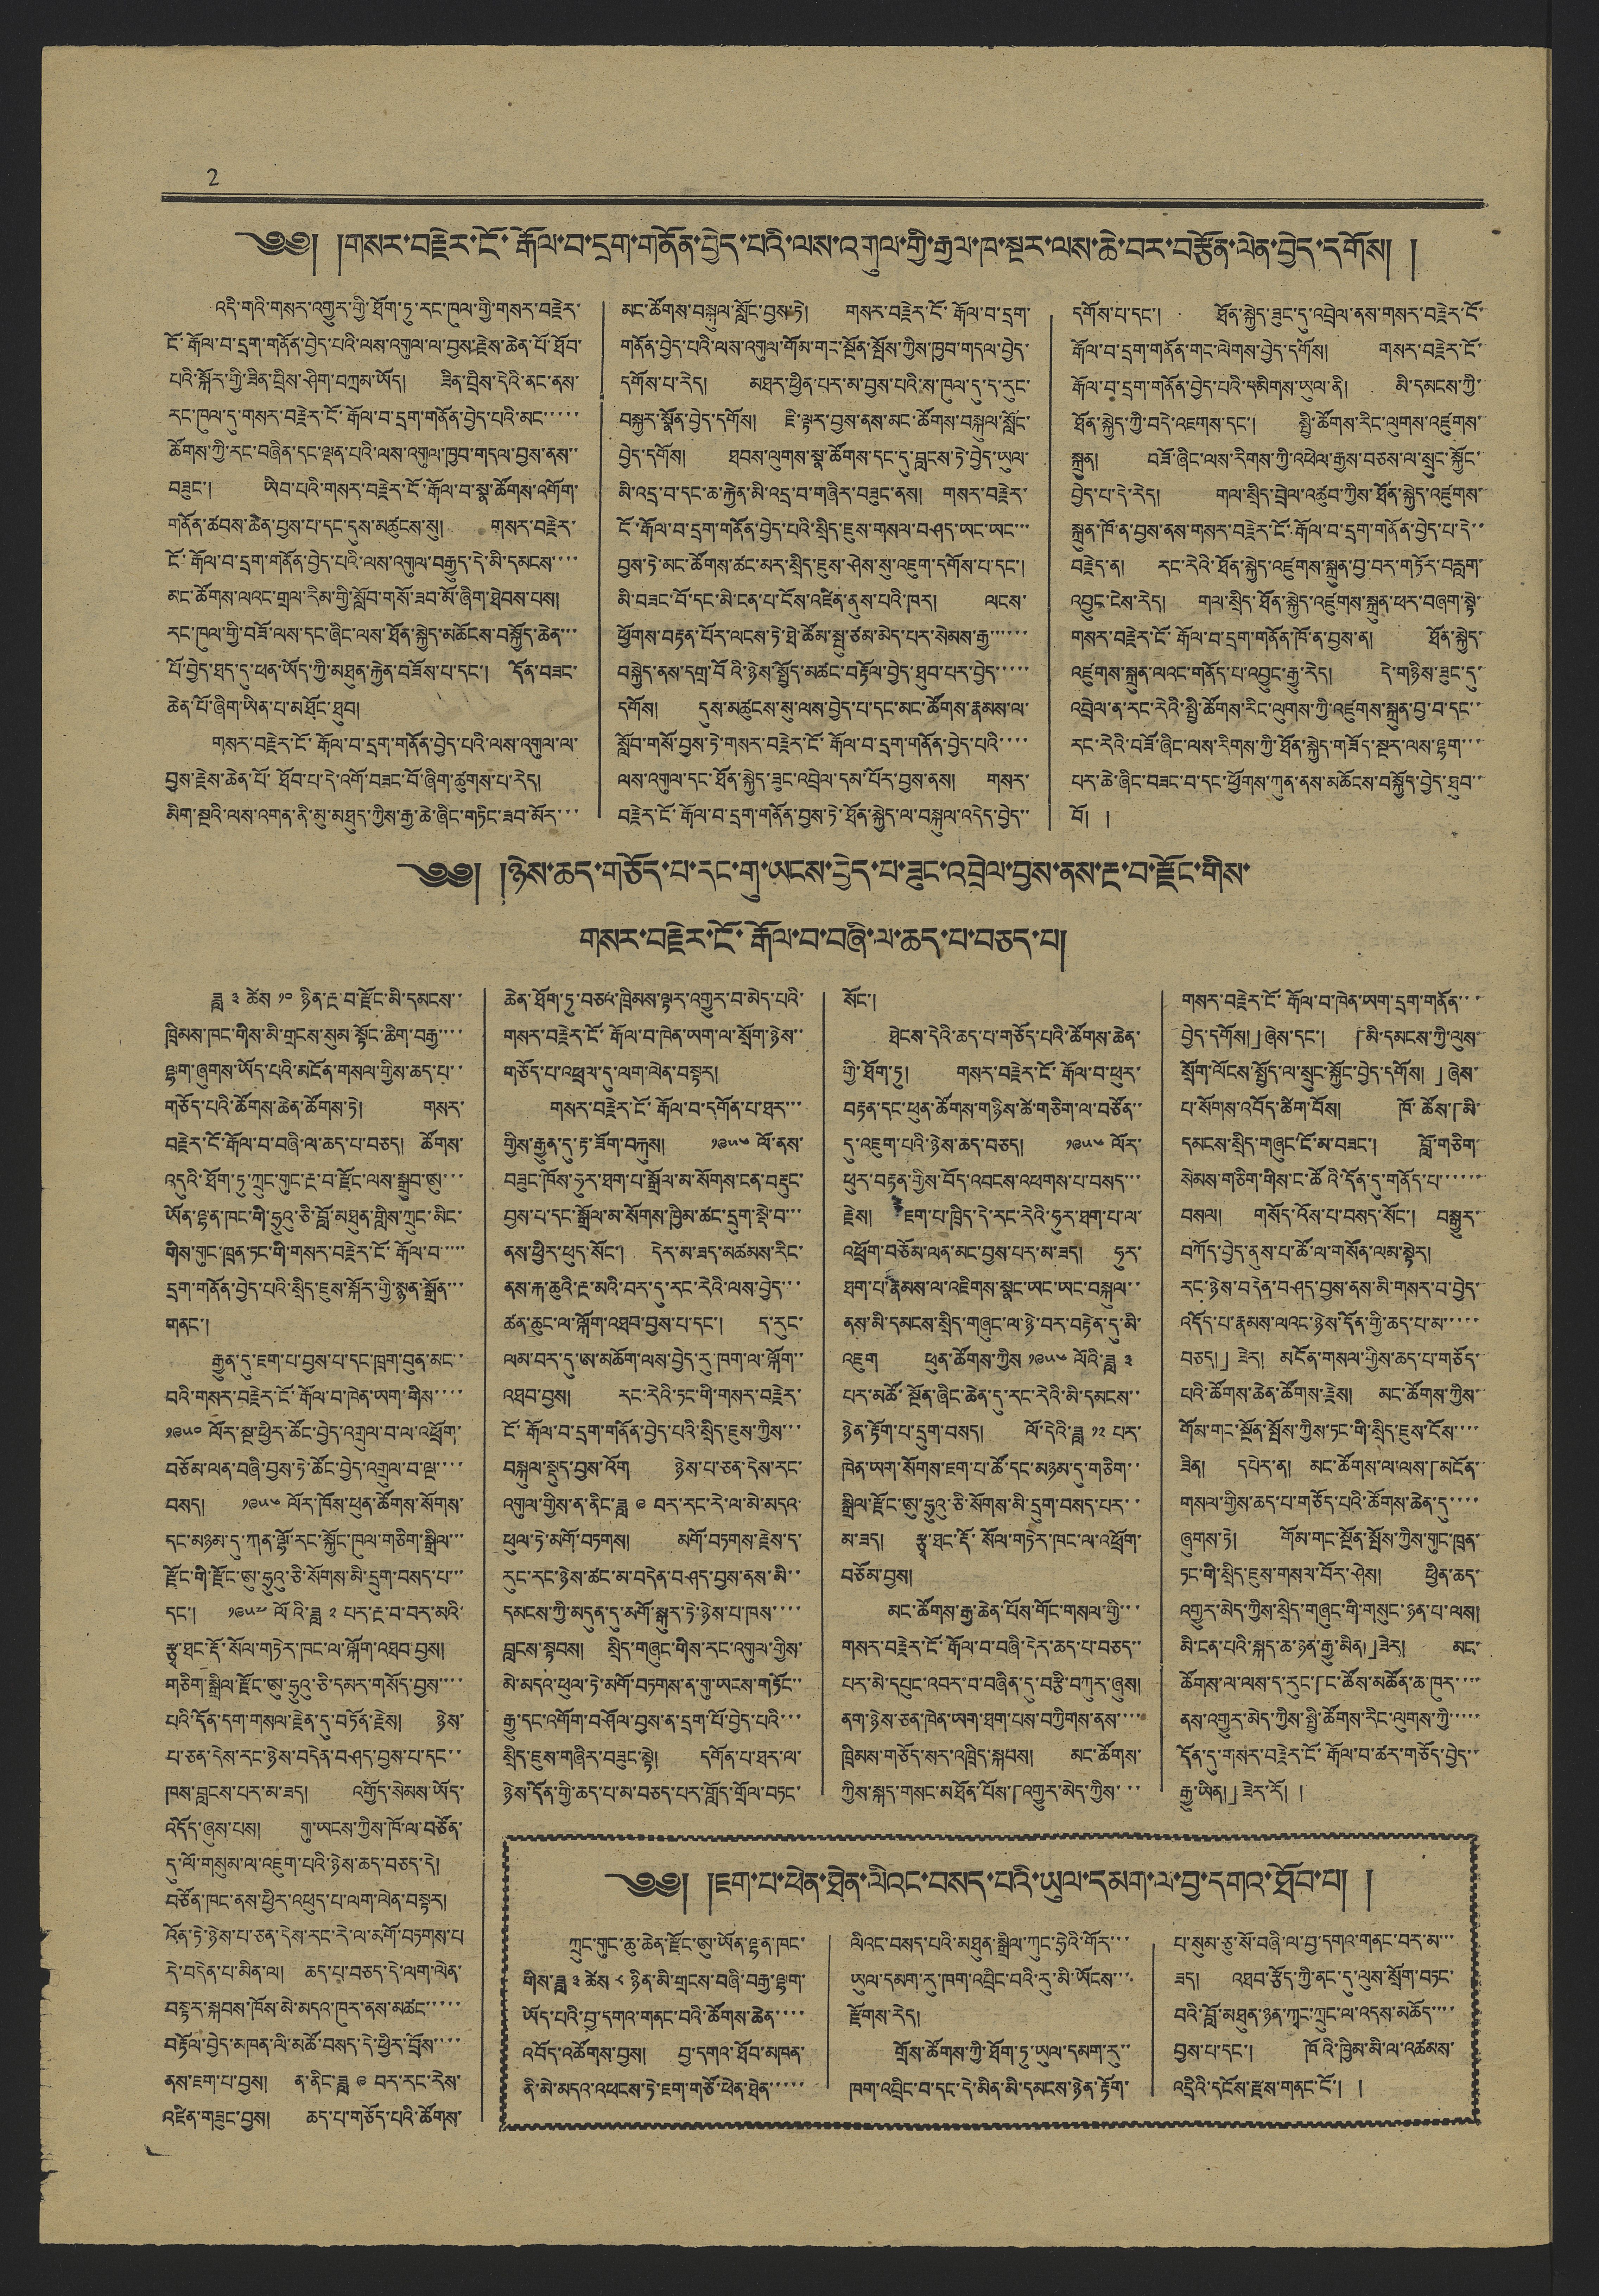2
༄༅། །གསར་བརྗེར་ངོ་རྒོལ་བ་དྲག་གནོན་བྱེད་པའི་ལས་འགུལ་གྱི་རྒྱལ་ཁ་སྔར་ལས་ཆེ་བར་བརྩོན་ལེན་བྱེད་དགོས། །
འདི་གའི་གསར་འགྱུར་གྱི་ཐོག་ཏུ་རང་ཁུལ་གྱི་གསར་བརྗེར་
ངོ་རྒོལ་བ་དྲག་གནོན་བྱེད་པའི་ལས་འགུལ་ལ་བྱས་རྗེས་ཆེན་པོ་ཐོབ་
པའི་སྐོར་གྱི་ཟིན་བྲིས་ཤིག་བཀྲམ་ཡོད། ཟིན་བྲིས་དེའི་ནང་ནས་
རང་ཁུལ་དུ་གསར་བརྗེར་ངོ་རྒོ་བ་དྲག་གནོན་བྱེད་པའི་མང་་་་་
ཚོགས་ཀྱི་རང་བཞིན་དང་ལྡན་པའི་ལས་འགུལ་ཁྱབ་གདལ་བྱས་ནས་་
བཟུང་། ཡིབ་པའི་གསར་བརྗེར་ངོ་རྒོལ་བ་སྣ་ཚོགས་འགོག་
གནོན་ཚོབས་ཆེན་བྱས་པ་དང་དུས་མཚུངས་སུ། གསར་བརྗེར་
ངོ་རྒོལ་བ་དྲག་གནོན་བྱེད་པའི་ལས་འགུལ་བརྒྱུད་དེ་མི་དམངས་་་་
མང་ཚོགས་ལའང་གྲལ་རིམ་གྱི་སློབ་གསོ་ཟབ་མོ་ཞིག་ཐེབས་པས།
རང་ཁུལ་གྱི་བཟོ་ལས་དང་ཞིང་ལས་ཐོན་སྐྱེད་མཆོངས་བསྐྱོད་ཆེན་་་
པོ་བྱེད་ཐད་དུ་ཕན་ཡོད་ཀྱི་མཐུན་རྐྱེན་བཟོས་པ་དང་། དོན་བཟང་
ཆེན་པོ་ཞོག་ཡིན་པ་མཐོང་ཐུབ།
གསར་བརྗེར་ངོ་རྒོལ་བ་དྲག་གནོན་བྱེད་པའི་ལས་འགུལ་ལ་
བྱས་རྗེས་ཆེན་པོ་ཐོབ་པ་དེ་འགོ་བཟང་པོ་ཞིག་ཚུགས་པ་རེད།
མིག་སྔའི་ལས་འགན་ནི་མུ་མཐུད་ཀྱིས་རྒྱ་ཆེ་ཞིང་གཏིང་ཟབ་མོར་་་
མང་ཚོགས་བསྐུལ་སློང་བྱས་ཏེ། གསར་བརྗེར་ངོ་རྒོལ་བ་དྲག་
གནོན་བྱེད་པའི་ལས་འགུལ་གོམ་གང་སྔོན་སྤོས་ཀྱིས་ཁྱབ་གདལ་བྱེད་
དགོས་པ་རེད། མཐར་ཕྱིན་པར་མ་བྱས་པའི་ས་ཁུལ་དུ་ད་རུང་
བསྐྱར་སྣོན་བྱེད་དགོས། ཇི་ལྟར་བྱས་ནས་མང་ཚོགས་བསྐུལ་སློང་
བྱེད་དགོས། ཐབས་ལུགས་སྣ་ཚོགས་དང་དུ་བླངས་ཏེ་བྱེད་ཡུལ་
མི་འདྲ་བ་དང་ཆ་རྐྱེན་མི་འདྲ་བ་གཞིར་བཟུང་ནས། གསར་བརྗེར་
ངོ་རྒོལ་བ་དྲག་གནོན་བྱེད་པའི་སྲིད་ཇུས་གསལ་བཤད་ཡང་ཡང་་་
བྱས་ཏེ་མང་ཚོགས་ཚང་མར་སྲིད་ཇུས་ཤེས་སུ་འཇུག་དགོས་པ་དང་།
མི་བཟང་བོ་དང་མི་ངན་པ་ངོས་འཛིན་ནུས་པའི་ཁར། ལངས་
ཕྱོགས་བརྟན་པོར་ལངས་ཏེ་ཐེ་ཚོམ་སྤུ་ཙམ་མེད་པར་སེམས་རྒྱ་་་་་་
བསྐྱེད་ནས་དགྲ་བོའི་ཉེས་སྤྱོད་མཚང་བརྟོལ་བྱེད་ཐུབ་པར་བྱེད་་་་་
དགོས། དུས་མཚུངས་སུ་ལས་བྱེད་པ་དང་མང་ཚོགས་རྣམས་ལ་
སློབ་གསོ་བྱས་ཏེ་གསར་བརྗེར་ངོ་རྒོལ་བ་དྲག་གནོན་བྱེད་པའི་་་་
ལས་འགུལ་དང་ཐོན་སྐྱེད་ཟུང་འབྲེལ་དམ་པོར་བྱས་ནས། གསར་
བརྗེར་ངོ་རྒོལ་བ་དྲག་གནོན་བྱས་ཏེ་ཐོན་སྐྱེད་ལ་བསྐུལ་འདེད་བྱེད་་
དགོས་པ་དང་། ཐོན་སྐྱེད་ཟུང་དུ་འབྲེལ་ནས་གསར་བརྗེར་ངོ་
རྒོལ་བ་དྲག་གནོན་གང་ལེགས་བྱེད་དགོས། གསར་བརྗེར་ངོ་
རྒོལ་བ་དྲག་གནོན་བྱེད་པའི་དམིགས་ཡུལ་ནི། མི་དམངས་ཀྱི་
ཐོན་སྐྱེད་ཀྱི་བདེ་འཇགས་དང་། སྤྱི་ཚོགས་རིང་ལུགས་འཛུགས་
སྐྲུན། བཟོ་ཞིང་ལས་རིགས་ཀྱི་འཕེལ་རྒྱས་བཅས་ལ་སྲུང་སྐྱོང་
བྱེད་པ་དེ་རེད། གལ་སྲིད་བྲེལ་འཚུབ་ཀྱིས་ཐོན་སྐྱེད་འཛུགས་
སྐྲུན་ཁོ་ན་བྱས་ནས་གསར་བརྗེར་ངོ་རྒོལ་བ་དྲག་གནོན་བྱེད་པ་དེ་་
བརྗེད་ན། རང་རེའི་ཐོན་སྐྱེད་འཛུགས་སྐྲུན་བྱ་བར་གཏོར་བརླག་
འབྱུང་ངེས་རེད། གལ་སྲིད་ཐོན་སྐྱེད་འཛུགས་སྐྲུན་ཕར་བཞག་སྟེ་
གསར་བརྗེར་ངོ་རྒོལ་བ་དྲག་གནོན་ཁོ་ན་བྱས་ན། ཐོན་སྐྱེད་
འཛུགས་སྐྲུན་ལའང་གནོད་པ་འབྱུང་རྒྱུ་རེད། དེ་གཉིས་ཟུང་དུ་
འབྲེལ་ན་རང་རེའི་སྤྱི་ཚོགས་རིང་ལུགས་ཀྱི་འཛུགས་སྐྲུན་བྱ་བ་དང་་
རང་རེའི་བཟོ་ཞིང་ལས་རིགས་ཀྱི་ཐོན་སྐྱེད་གཟོད་སྔར་ལས་ལྷག་་་
པར་ཆེ་ཞིང་བཟང་བ་དང་ཕྱོགས་ཀུན་ནས་མཆོངས་བསྐྱོད་བྱེད་ཐུབ་་
བོ། །
༄༅། །ཉེས་ཆད་གཅོད་པ་དང་གུ་ཡངས་བྱེད་པ་ཟུང་འབྲེལ་བྱས་ནས་རྔ་བ་རྫོང་གིས་
གསར་བརྗེར་ངོ་རྒོལ་བ་བཞི་ལ་ཆད་པ་བཅད་པ།
ཟླ ༣ ཚེས ༡༠ ཉིན་རྔ་བ་རྫོང་མི་དམངས་་
ཁྲིམས་ཁང་གིས་མི་གྲངས་སུམ་སྟོང་ཆིག་བརྒྱ་་་་
ལྷག་ཞུགས་ཡོད་པའི་མངོན་གསལ་གྱིས་ཆད་པ་་
གཅོད་པའི་ཚོགས་ཆེན་ཚོགས་ཏེ། གསར་
བརྗེར་ངོ་རྒོལ་བ་བཞི་ལ་ཆད་པ་བཅད། ཚོགས་
འདུའི་ཐོག་ཏུ་ཀྲུང་གུང་རྔ་བ་རྫོང་ལས་སྒྲུབ་ཨུ་་་
ཡོན་ལྷན་ཁང་གི་ཧྲུའུ་ཅི་བློ་མཐུན་གླིས་ཀྲུང་མིང་
གིས་གུང་ཁྲན་ཏང་གི་གསར་བརྗེར་ངོ་རྒོལ་བ་་་་
དྲག་གནོན་བྱེད་པའི་སྲིད་ཇུས་སྐོར་གྱི་སྙན་སྒྲོན་་་
གནང་།
རྒྱུན་དུ་ཇག་པ་བྱས་པ་དང་ཁྲག་བུན་མང་་
བའི་གསར་བརྗེར་ངོ་རྒོལ་བ་ཁེན་ཡག་གིས་་་་
༡༩༥༠ ལོར་སྔ་ཕྱིར་ཚོང་བྱེད་འགྲུལ་བ་ལ་འཕྲོག་
བཅོམ་ལན་བཞི་བྱས་ཏེ་ཚོང་བྱེད་འགྲུལ་བ་ལྔ་་་་
བསད། ༡༩༥༦ ལོར་ཁོས་ཕུན་ཚོགས་སོགས་
དང་མཉམ་དུ་ཀན་ལྷོ་རང་སྐྱོང་ཁུལ་གཅིག་སྒྲིལ་་་
རྫོང་གི་རྫོང་ཨུ་ཧྲུའུ་ཅི་སོགས་མི་དྲུག་བསད་པ་་་
དང་། ༡༩༥༧ ལོའི་ཟླ ༢ པར་རྔ་བ་བར་མའི་
རྩྭ་ཐང་རྡོ་སོལ་གཏེར་ཁང་ལ་ལྐོག་འཐབ་བྱས།
གཅིག་སྒྲིལ་རྫོང་ཨུ་ཧྲུའུ་ཅི་དམར་གསོད་བྱས་་་་
པའི་དོན་དག་གསལ་རྗེན་དུ་བཏོན་རྗེས། ཉེས་
པ་ཅན་དེས་རང་ཉེས་བདེན་བཤད་བྱས་པ་དང་་
ཁས་བླངས་པར་མ་ཟད། འགྱོད་སེམས་ཡོད་
འདོད་ཞུས་པས། གུ་ཡངས་ཀྱིས་ཁོ་ལ་བཙོན་
དུ་ལོ་གསུམ་ལ་འཇུག་པའི་ཉེས་ཆད་བཅད་དེ།
བཙོན་ཁང་ནས་ཕྱིར་འཕུད་པ་ལག་ལེན་བསྟར།
འོན་ཏེ་ཉེས་པ་ཅན་དེས་རང་རེ་ལ་མགོ་བཏགས་པ
དེ་བདེན་པ་མིན་ལ། ཆད་པ་བཅད་དེ་ལག་ལེན་
བསྟར་སྐབས་ཁོས་མེ་མདའ་ཁུར་ནས་མཚང་་་་་
བརྟོལ་བྱེད་མཁན་ལི་མཚོ་བསད་དེ་ཕྱིར་བྲོས་་་་
ནས་ཇག་པ་བྱས། ན་ནིང་ཟླ ༩ བར་རང་རེས་
འཛིན་གཟུང་བྱས། ཆད་པ་གཅོད་པའི་ཚོགས་
ཆེན་ཐོག་ཏུ་བཅའ་ཁྲིམས་ལྟར་འགྱུར་བ་མེད་པའི་
གསར་བརྗེར་ངོ་རྒོལ་བ་ཁེན་ཡག་ལ་སྲོག་ཉེས་་
གཅོད་པ་འཕྲལ་དུ་ལག་ལེན་བསྟར།
གསར་བརྗེར་ངོ་རྒོལ་བ་དགོན་པ་ཐར་་་
གྱིས་རྒྱུན་དུ་རྟ་ཟོག་བརྐུས། ༡༩༥༦ ལོ་ནས་
བཟུང་ཁོས་ཧུར་ཐག་པ་སྒྲོལ་མ་སོགས་ངན་བརྡུང་
བྱས་པ་དང་སྒྲོལ་མ་སོགས་ཁྱིམ་ཚང་དྲུག་སྡེ་བ་་་
ནས་ཕྱིར་ཕུད་སོང་། དེར་མ་ཟད་མཚམས་རིང་
ནས་རྐ་ཆུའི་རྔ་མའི་བར་དུ་རང་རེའི་ལས་བྱེད་་་
ཚན་ཆུང་ལ་ལྐོག་འཐབ་བྱས་པ་དང་། ད་རུང་
ལམ་བར་དུ་ཨ་མཆོག་ལས་བྱེད་རུ་ཁག་ལ་ལྐོག་་
འཐབ་བྱས། རང་རེའི་ཏང་གི་གསར་བརྗེར་
ངོ་རྒོལ་བ་དྲག་གནོན་བྱེད་པའི་སྲིད་ཇུས་ཀྱིས་་་
བསྐུལ་སྡུད་བྱས་འོག ཉེས་པ་ཅན་དེས་རང་
འགུལ་གྱིས་ན་ནིང་ཟླ ༩ བར་རང་རེ་ལ་མེ་མདའ་
ཕུལ་ཏེ་མགོ་བཏགས། མགོ་བཏགས་རྗེས་ད་
རུང་རང་ཉེས་ཚང་མ་མདེན་བཤད་བྱས་ནས་མི་་
དམངས་ཀྱི་མདུན་དུ་མགོ་སྒུར་ཏེ་ཉེས་པ་ཁས་་་་
བླངས་སྟབས། སྲིད་གཞུང་གིས་རང་འགུལ་གྱིས་
མེ་མདའ་ཕུལ་ཏེ་མགོ་བཏགས་ན་གུ་ཡངས་གཏོང་་
རྒྱུ་དང་འགོག་བཤོལ་བྱས་ན་དྲག་པོ་བྱེད་པའི་་་
སྲིད་ཇུས་གཞིར་བཟུང་སྟེ། དགོན་པ་ཐར་ལ་
ཉེས་དོན་གྱི་ཆད་པ་མ་བཅད་པར་གློད་གྲོལ་བཏང་
སོང་།
ཐེངས་དེའི་ཆད་པ་གཅོད་པའི་ཚོགས་ཆེན་
གྱི་ཐོག་ཏུ། གསར་བརྗེར་ངོ་རྒོལ་བ་ཕུར་
བརྟན་དང་ཕུན་ཚོགས་གཉིས་ཚེ་གཅིག་ལ་བཙོན་་
དུ་འཇུག་པའི་ཉེས་ཆད་བཅད། ༡༩༥༦ ལོར་
ཕུར་བརྟན་གྱིས་བོད་འབངས་འཕགས་པ་བསད་་་
རྗེས། ཇག་པ་ཁྲིད་དེ་རང་རེའི་ཧུར་ཐག་པ་ལ་
འཕྲོག་བཅོམ་ལན་མང་བྱས་པར་མ་ཟད། ཧུར་
ཐག་པ་རྣམས་ལ་འཇིགས་སྣང་ཡང་ཡང་བསྐུལ་་
ནས་མི་དམངས་སྲིད་གཞུང་ལ་ཉེ་བར་བརྟེན་དུ་མི་
འཇུག ཕུན་ཚོགས་ཀྱིས ༡༩༥༦ ལོའི་ཟླ ༣
པར་མཚོ་སྔོན་ཞིང་ཆེན་དུ་རང་རེའི་མི་དམངས་་
ཉེན་རྟོག་པ་དྲུག་བསད། ལོ་དེའི་ཟླ ༡༢ པར་
ཁེན་ཡག་སོགས་ཇག་པ་ཚོ་དང་མཉམ་དུ་གཅིག་་
སྒྲིལ་རྫོང་ཨུ་ཧྲུའུ་ཅི་སོགས་མི་དྲུག་བསད་པར་་
མ་ཟད། རྩྭ་ཐང་རྡོ་སོལ་གཏེར་ཁང་ལ་འཕྲོག་
བཅོམ་བྱས།
མང་ཚོགས་རྒྱ་ཆེན་པོས་གོང་གསལ་གྱི་་་
གསར་བརྗེར་ངོ་རྒོལ་བ་བཞི་དེར་ཆད་པ་བཅད་་
པར་མེ་དཔུང་འབར་བ་བཞིན་དུ་བརྩི་བཀུར་ཞུས།
ནག་ཉེས་ཅན་ཁེན་ཡག་ཐག་པས་བཀྱིགས་ནས་་་་
ཁྲིམས་གཅོད་སར་འཁྲིད་སྐབས། མང་ཚོགས་
ཀྱིས་སྐད་གསང་མཐོན་པོས་「འགྱུར་མེད་ཀྱིས་་་
གསར་བརྗེར་ངོ་རྒོལ་བ་ཁེན་ཡག་དྲག་གནོན་་་
བྱེད་དགོས།」ཞེས་དང་། 「མི་དམངས་ཀྱི་ལུས་
སྲོག་ལོངས་སྤྱོད་ལ་སྲུང་སྐྱོང་བྱེད་དགོས།」ཞེས་
པ་སོགས་འབོད་ཚིག་བོས། ཁོ་ཚོས་「མི་
དམངས་སྲིད་གཞུང་ངོ་མ་བཟང་། བློ་གཅིག་
སེམས་གཅིག་གིས་ང་ཚོའི་དོན་དུ་གནོད་པ་་་་་་
བསལ། གསོད་འོས་པ་བསད་སོང་། བསྒྱུར་
བཀོད་བྱེད་ནུས་པ་ཚོ་ལ་གསོན་ལམ་སྟེར།
རང་ཉེས་བདེན་བཤད་བྱས་ནས་མི་གསར་བ་བྱེད་
འདོད་པ་རྣམས་ལའང་ཉེས་དོན་གྱི་ཆད་པ་མ་་་་་
བཅད།」ཟེར། མངོན་གསལ་གྱིས་ཆད་པ་གཅོད་
པའི་ཚོགས་ཆེན་ཚོགས་རྗེས། མང་ཚོགས་ཀྱིས་
གོམ་གང་སྔོན་སྤོས་ཀྱིས་ཏང་གི་སྲིད་ཇུས་ངོས་་་་
ཟིན། དཔེར་ན། མང་ཚོགས་ལ་ལས་「མངོན་
གསལ་གྱིས་ཆད་པ་གཅོད་པའི་ཚོགས་ཆེན་དུ་་་་
ཞུགས་ཏེ། གོམ་གང་སྔོན་སྤོས་ཀྱིས་གུང་ཁྲན་
ཏང་གི་སྲིད་ཇུས་གསལ་བོར་ཤེས། ཕྱིན་ཆད་
འགྱུར་མེད་ཀྱིས་སྲིད་གཞུང་གི་གསུང་ཉན་པ་ལས།
མི་ངན་པའི་སྐད་ཆ་ཉན་རྒྱུ་མིན།」ཟེར། མང་
ཚོགས་ལ་ལས་ད་རུང་「ང་ཚོས་མཚོན་ཆ་ཁུར་་་་
ནས་འགྱུར་མེད་ཀྱིས་སྤྱི་ཚོགས་རིང་ལུགས་ཀྱི་་་་་
དོན་དུ་གསར་བརྗེར་ངོ་རྒོལ་བ་ཚར་གཅོད་བྱེད་་
རྒྱུ་ཡིན།」ཟེར་རོ། །
༄༅། །ཇག་པ་ཕེན་ཐེན་ལིའང་བསད་པའི་ཡུལ་དམག་ལ་བྱ་དགའ་ཐོབ་པ། །
ཀྲུང་གུང་ཆུ་ཆེན་རྫོང་ཨུ་ཡོན་ལྷན་ཁང་
གིས་ཟླ ༣ ཚེས ༨ ཉིན་མི་གྲངས་བཞི་བརྒྱ་ལྷག་
ཡོད་པའི་བྱ་དགའ་གནང་བའི་ཚོགས་ཆེན་་་་
འབོད་འཚོགས་བྱས། བྱ་དགའ་ཐོབ་མཁན་
ནི་མེ་མདའ་འཕངས་ཏེ་ཇག་གཙོ་ཕེན་ཐེན་་་་་
ལིའང་བསད་པའི་མཐུན་སྒྲིལ་ཀུང་ཧྲེའི་གོར་་་
ཡུལ་དམག་རུ་ཁག་འབྲིང་བའི་རུ་མི་ཡོངས་་་
རྫོགས་རེད།
གྲོས་ཚོགས་ཀྱི་ཐོག་ཏུ་ཡུལ་དམག་རུ་་
ཁག་འབྲིང་བ་དང་དེ་མིན་མི་དམངས་ཉེན་རྟོག་
པ་སུམ་ཅུ་སོ་བཞི་ལ་བྱ་དགའ་གནང་བར་མ་་་
ཟད། འཐབ་རྩོད་ཀྱི་ནང་དུ་ལུས་སྲོག་བཏང་
བའི་བློ་མཐུན་ཉན་ཀྭང་ཀྲུང་ལ་འདས་མཆོད་་་་
བྱས་པ་དང་། ཁོའི་ཁྱིམ་མི་ལ་འཚམས་
འདྲིའི་དངོས་རྫས་གནང་ངོ་། །
